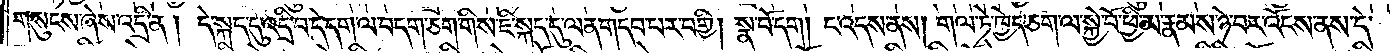གསུངས་ཞེས་འདྲི་ན། དེ་སྐད་དུ་འདྲི་བ་དེ་དག་ལ་བདག་ཅག་གིས་ཇི་སྐད་དུ་ལན་གདབ་པར་བགྱི། སྣ་བོ་དག། ང་འདས་ནས། གལ་ཏེ་ཁྱེད་ཅག་ལ་སྐྱེ་བོ་ཕྱི་མ་རྣམས་ཉེ་བར་འོངས་ནས་དེ་
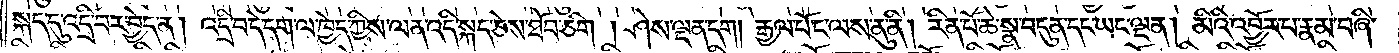སྐད་དུ་འདྲི་བར་བྱེད་ན། འདྲི་བ་དེ་དག་ལ་ཁྱེད་ཀྱིས་ལན་འདི་སྐད་ཅེས་ཐོབ་ཅིག །ཤེས་ལྡན་དག། རྒྱལ་པོ་ང་ལས་ནུ་ནི། རིན་པོ་ཆེ་སྣ་བདུན་དང་ཡང་ལྡན། མིའི་འབྱོར་པ་རྣམ་བཞི་
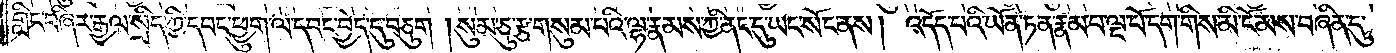གླིང་བཞིར་རྒྱལ་སྲིད་ཀྱི་དབང་ཕྱུག་ལ་དབང་བྱེད་དུ་བཅུག །སུམ་ཅུ་རྩ་གསུམ་པའི་ལྷ་རྣམས་ཀྱི་ནང་དུ་ཡང་སོང་ནས། འདོད་པའི་ཡོན་ཏན་རྣམ་པ་ལྔ་པོ་དག་གིས་མི་ངོམས་བཞིན་དུ་
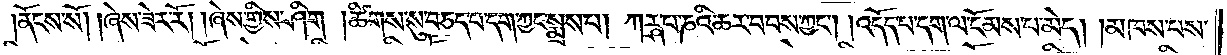ནོངས་སོ། །ཞེས་ཟེར་རོ། །ཞེས་གྱིས་ཤིག །ཚིགས་སུ་བཅད་པ་དག་ཀྱང་སྨྲས་པ། ཀཪྴ་པ་ཎའི་ཆར་བབས་ཀྱང༌། །འདོད་པ་དག་ལ་ངོམས་པ་མེད། མཁས་པས་
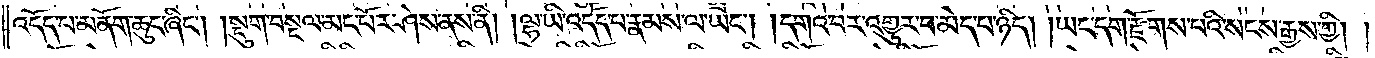འདོད་པ་མནོག་ཆུང་ཞིང༌། །སྡུག་བསྔལ་མང་པོར་ཤེས་ནས་ནི། །ལྷ་ཡི་འདོད་པ་རྣམས་ལ་ཡང༌། །དགའ་བར་འགྱུར་བ་མེད་པ་ཉིད། །ཡང་དག་རྫོགས་པའི་སངས་རྒྱས་ཀྱི།
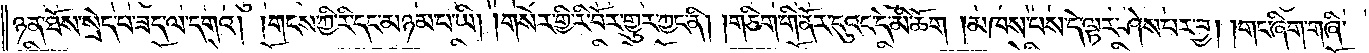ཉན་ཐོས་སྲེད་པ་ཟད་ལ་དགའ། །གངས་ཀྱི་རི་དང་མཉམ་པ་ཡི། །གསེར་གྱི་རི་བོར་གྱུར་ཀྱང་ནི། །གཅིག་གི་ནོར་དུའང་དེ་མི་ཆོག །མཁས་པས་དེ་ལྟར་ཤེས་པར་བྱ། །གང་ཞིག་གཞི་
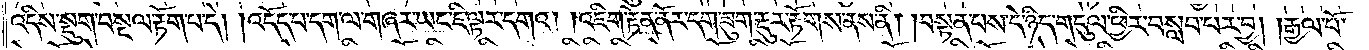འདིས་སྡུག་བསྔལ་རྟོག་པ་དེ། །འདོད་པ་དག་ལ་གཞར་ཡང་ཇི་ལྟར་དགའ། །འཇིག་རྟེན་ནོར་དག་ཟུག་རྡུར་རྟོགས་ནས་ནི། །བསྟན་པས་དེ་ཉིད་གདུལ་ཕྱིར་བསླབ་པར་བྱ། །རྒྱལ་པོ་
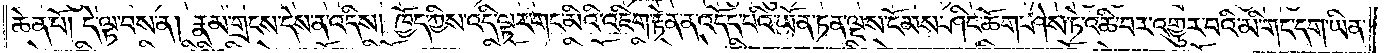ཆེན་པོ། དེ་ལྟ་བས་ན། རྣམ་གྲངས་དེས་ན་འདིས། ཁྱོད་ཀྱིས་འདི་ལྟར་གང་མིའི་འཇིག་རྟེན་ན་འདོད་པའི་ཡོན་ཏན་ལྔས་ངོམས་ཤིང་ཆོག་ཤེས་ཏེ་འཆི་བར་འགྱུར་བའི་མི་གང་དག་ཡིན་
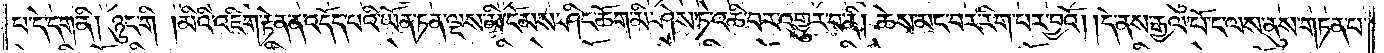པ་དེ་དག་ནི། ཉུང་གི །མིའི་འཇིག་རྟེན་ན་འདོད་པའི་ཡོན་ཏན་ལྔས་མི་ངོམས་ཤིང་ཆོག་མི་ཤེས་ཏེ་འཆི་བར་འགྱུར་བ་ནི། ཆེས་མང་བར་རིག་པར་བྱའོ། །དེ་ནས་རྒྱལ་པོ་ང་ལས་ནུས་གཏན་པ་
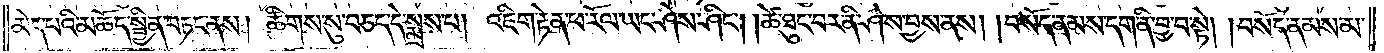མེད་པའི་མཆོད་སྦྱིན་བཏང་ནས། ཚིགས་སུ་བཅད་དེ་སྨྲས་པ། འཇིག་རྟེན་ཕ་རོལ་ཡང་ཤེས་ཤིང༌། །ཚེ་ཐུང་བར་ནི་ཤེས་བྱས་ནས། །བསོད་ནམས་དག་ནི་བྱ་བ་སྟེ། །བསོད་ནམས་མ་
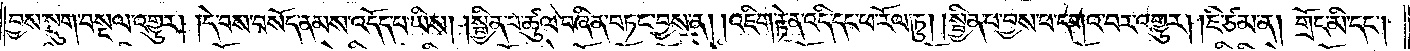བྱས་སྡུག་བསྔལ་འགྱུར། །དེ་བས་བསོད་ནམས་འདོད་པ་ཡིས། །སྦྱིན་པ་ཚུལ་བཞིན་བཏང་བྱས་ན། །འཇིག་རྟེན་འདི་དང་ཕ་རོལ་ཏུ། །སྦྱིན་པ་བྱས་པ་དགའ་བར་འགྱུར། །ཇི་ཙམ་ན། གྲོང་མི་དང༌།
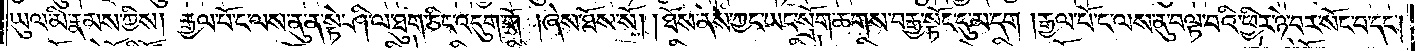ཡུལ་མི་རྣམས་ཀྱིས། རྒྱལ་པོ་ང་ལས་ནུ་ན་སྟེ་ཤི་ལ་ཐུག་ཅིང་འདུག་གོ །ཞེས་ཐོས་སོ། །ཐོས་ནས་ཀྱང་ཡང་སྲོག་ཆགས་བརྒྱ་སྟོང་དུ་མ་དག །རྒྱལ་པོ་ང་ལས་ནུ་བལྟ་བའི་ཕྱིར་ཉེ་བར་སོང་བ་དང༌།
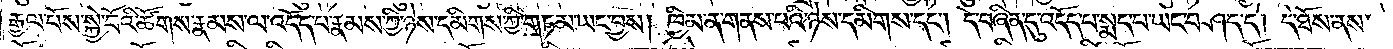རྒྱལ་པོས་སྐྱེ་བོའི་ཚོགས་རྣམས་ལ་འདོད་པ་རྣམས་ཀྱི་ཉེས་དམིགས་ཀྱི་གཏམ་ཡང་བྱས། ཁྱིམ་ན་གནས་པའི་ཉེས་དམིགས་དང༌། དེ་བཞིན་དུ་འདོད་པ་སྨད་པ་ཡང་བཤད་དེ། དེ་ཐོས་ནས་
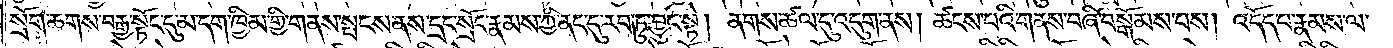སྲོག་ཆགས་བརྒྱ་སྟོང་དུ་མ་དག་ཁྱིམ་གྱི་གནས་སྤངས་ནས་དྲང་སྲོང་རྣམས་ཀྱི་ནང་དུ་རབ་ཏུ་བྱུང་སྟེ། ནགས་ཚལ་དུ་འདུག་ནས། ཚངས་པའི་གནས་བཞི་བསྒོམས་པས། འདོད་པ་རྣམས་ལ་
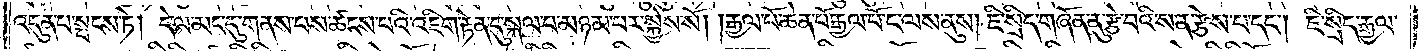འདུན་པ་སྤངས་ཏེ། དེ་ལ་མང་དུ་གནས་པས་ཚངས་པའི་འཇིག་རྟེན་དུ་སྐལ་པ་མཉམ་པར་སྐྱེས་སོ། །རྒྱལ་པོ་ཆེན་པོ་རྒྱལ་པོ་ང་ལས་ནུས། ཇི་སྲིད་གཞོན་ནུ་རྩེ་བའི་ས་ན་རྩེས་པ་དང༌། ཇི་སྲིད་རྒྱལ་
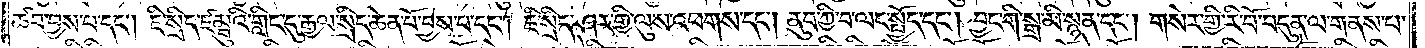ཚབ་བྱས་པ་དང༌། ཇི་སྲིད་ཛམྦུའི་གླིང་དུ་རྒྱལ་སྲིད་ཆེན་པོ་བྱས་པ་དང༌། ཇི་སྲིད་ཤར་གྱི་ལུས་འཕགས་དང༌། ནུབ་ཀྱི་བ་ལང་སྤྱོད་དང༌། བྱང་གི་སྒྲ་མི་སྙན་དང༌། གསེར་གྱི་རི་བོ་བདུན་ལ་གནས་པ་
